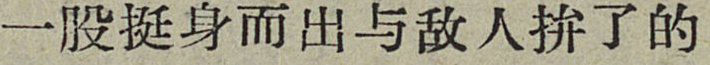一股挺身而出与敌人拚了的
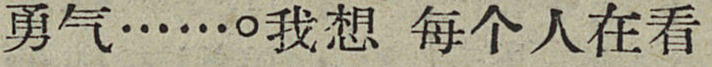勇气……。我想每个人在看
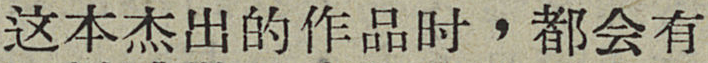这本杰出的作品时，都会有
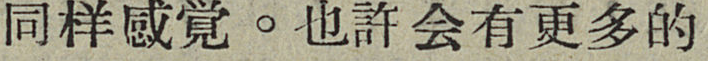同样感覚。也許会有更多的
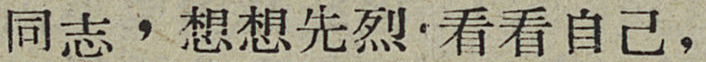同志，想想先烈，看看自己，
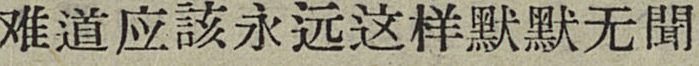难道应該永远这样默默无聞
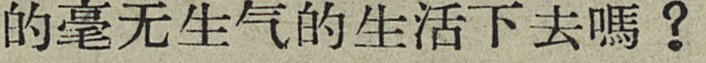的毫无生气的生活下去嗎？
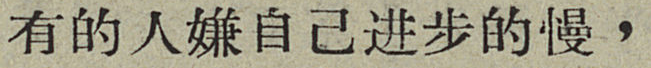有的人嫌自己进步的慢，
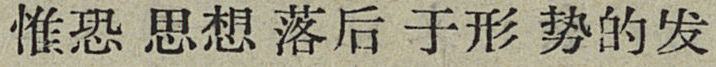惟恐思想落后于形势的发
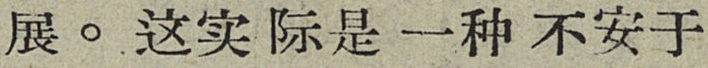展。这实际是一种不安于
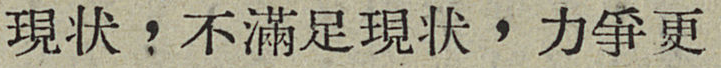現状，不滿足現状，力爭更
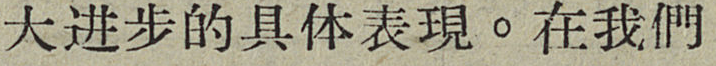大进步的具体表現。在我們
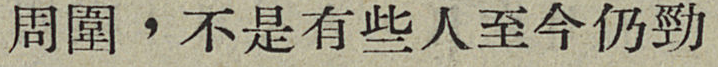周圍，不是有些人至今仍勁
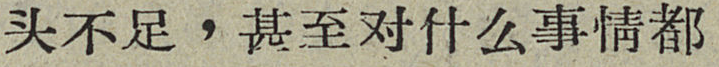头不足，甚至对什么事情都
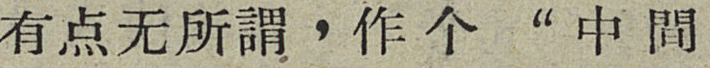有点无所謂，作个“中間
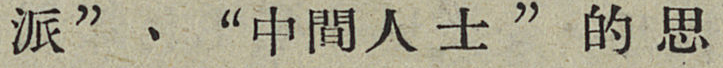派”、“中間人士”的思
